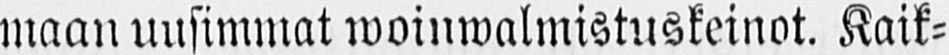maan uusimmat woinwalmistuskeinot. Kaik-
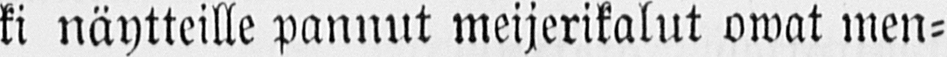ki näytteille pannut meijerikalut owat men-
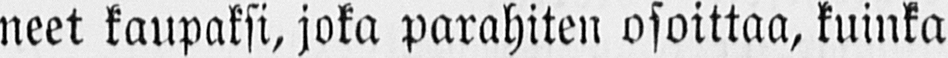neet kaupaksi, joka parahiten osoittaa, kuinka
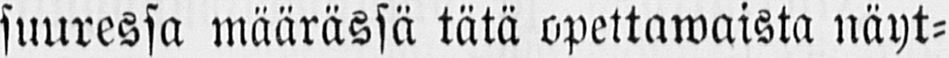suuressa määrässä tätä opettawaista näyt-
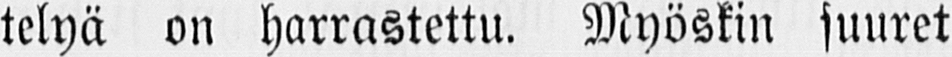telyä on harrastettu. Myöskin suuret
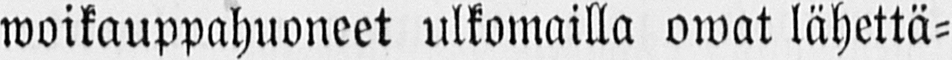woikauppahuoneet ulkomailla owat lähettä-
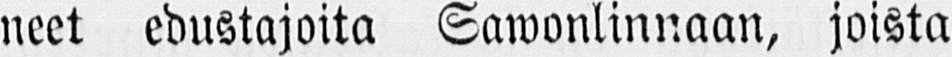neet edustajoita Sawonlinnaan, joista
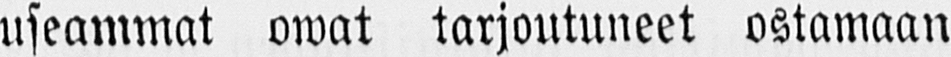useammat owat tarjoutuneet ostamaan
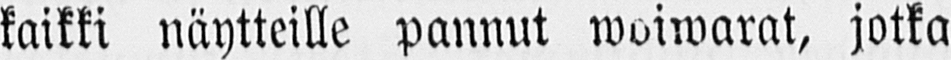kaikki näytteille pannut woiwarat, jotka
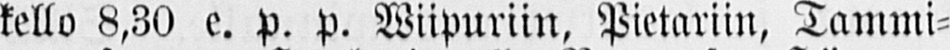kello 8,30 e. p. p. Wiipuriin, Pietariin, Tammi-
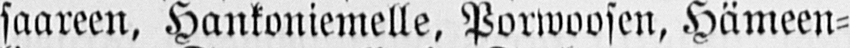saareen, Hankoniemelle, Porwoosen, Hämeen-
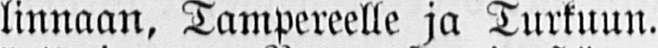linnaan, Tampereelle ja Turkuun.
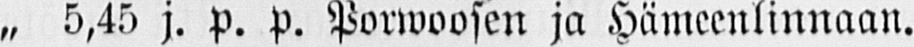„ 5,45 j. p. p. Porwoosen ja Hämeenlinnaan.
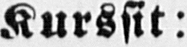Kurssit:
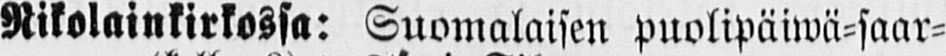Nikolainkirkossa: Suomalaisen puolipäiwä-saar-
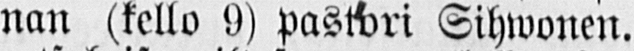nan (kello 9) pastori Sihwonen.
